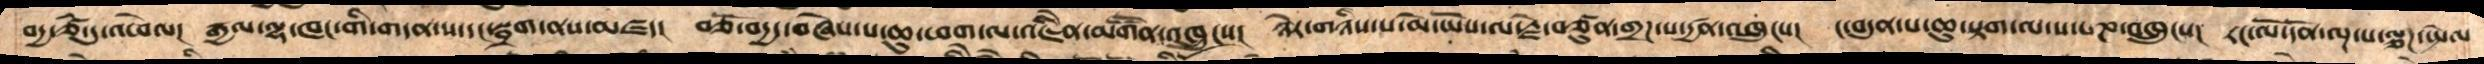བདྱ་ཙཾ་དུ་འཕེལ།  དྱལ་ལྷ་ཁང་གི་གདན་ས་དང་སྦྲག་ནས་མཛད།   བཅོ་བདྱད་བཞེས་པ་ཆུ་ཕག་ལ་འཇིནེ་མགཽན་འཁྲུངས།   ཉེར་གཉིས་པ་མེ་ཡོས་ལ་རྗེ་བཙུན་གྲཌ་པ་དྱཚན་འཁྲུངས།  ང་བདུན་པ་ཆུ་སྟག་ལ་ས་པཎ་འཁྲུངས།  རང་ལོ་དོན་ལྔ་པ་ལྕཌ་སྤེལ་
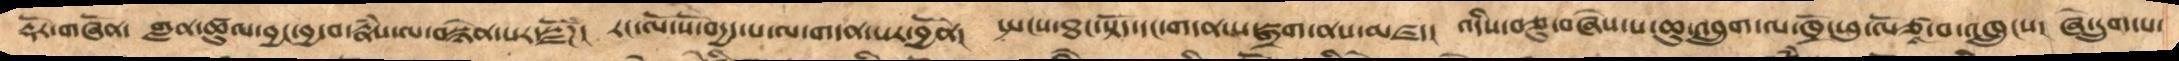རྡོར་གཞོན།   གླན་ཚུལ་བྱང་བྱ་བ་རྣཾས་ལ་བསྙེན་པར་སྫོཌ།  རང་ལོ་སོ་བདྱད་པ་ལ་གདན་སར་བྱོན།  སྤངས་ཐང་སྟོད་དང་གདན་ས་སྒྲག་ནས་མཛད།   འདིས་བཅུ་བཞེས་པ་ཆུ་འབྲུག་ལ་ཁྲོ་ཕུ་ལོ་ཙཱ་བ་འཁྲུངས།  ཞེ་དྲུག་པ
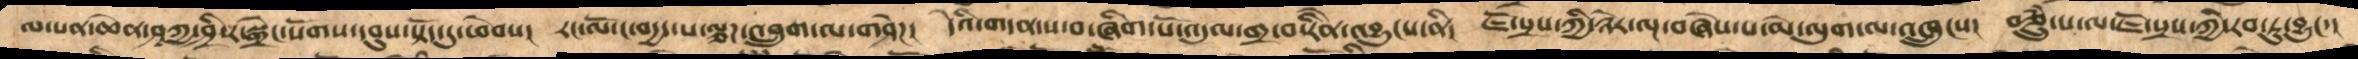ལ་པཎ་ཆེན་ཤཱཀྱ་ཤྲཱི་ར་སྒྲེང་སོགས་དབུས་སྟོད་དུ་ཕེབས།  རང་ལོ་ང་བདྱད་པ་ལྕཌ་འབྲུག་ལ་གཤེཌ།  དེའི་གདན་ས་བ་ཞིག་པོ་འདུལ་གྲ་བ་རིནེ་འབྱུངས་ནི།   ཇོ་སྲས་ཀྱི་ཉེར་ལྔ་བཞེས་པ་མེ་ལུག་ལ་འཁྲུངས།   བཅྲུཾ་པ་ལ་ཇོ་སྲས་ཀྱི་རབ་ཏུ་བྱུང་།
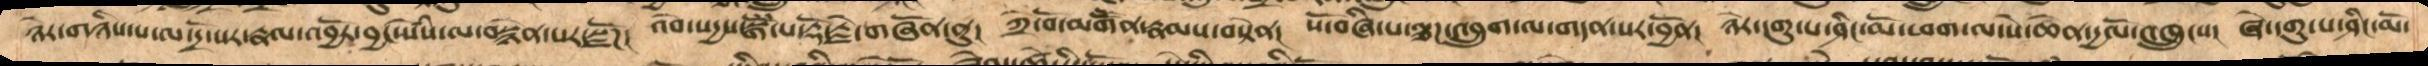ཉེར་གཉིས་པ་ལ་དྲོ་སར་རྣལ་འབྱོར་བྱང་སེསཾ་ལ་བསྙེན་པར་སྫོཌ།   འབེ་སདྱས་སྒོཾ་པ་རྡོ་རྗེ་གཞོན་ནུ།  ཀྲེ་བོ་མགཽན་རྣམས་བསྟེན།  སོ་བཞི་པ་ལྕཌ་འབྲུག་ལ་གདན་སར་བྱོན།  ཉེར་དགུ་པ་ཤིང་མོ་ཕག་ལ་སེ་ཆེན་དྱལོ་འཁྲུངས།  ཞེ་དགུ་པ་ཤིང་མོ་
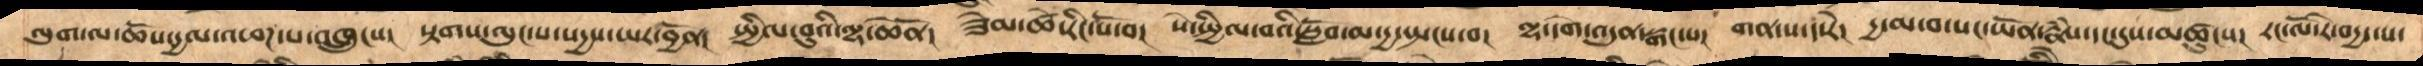ལུག་ལ་ཆོས་དྱལ་འཕཌ་པ་འཁྲུངས།  སྟགས་ལུང་པ་སདྱས་ཡར་བྱོན།   སྤྱིལ་བུའི་ལྷ་ཆེནོ།   ཟེམ་ཚེ་རིང་པོ་བ།  སེ་སྤྱིལ་བའི་སློབ་མ་དྱ་སྤངས་བ།   ལྷ་དགེ་འདུན་སྒང་པ།  གན་ས་ད་རེ།  དྱ་མ་བ་སང་ཡོན་རྣཾས་དང་དུས་མཚུངས།  རང་ལོ་རེ་བདྱད་པ་
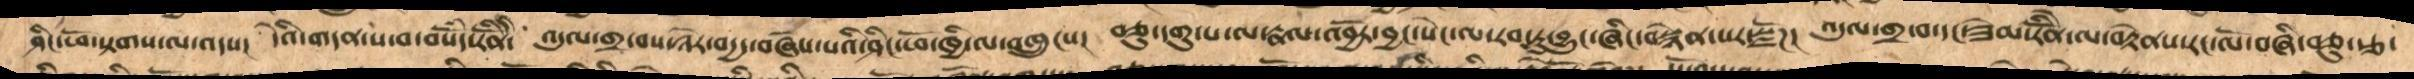ཤིང་ཕོ་སྟགས་ལ་འདས།   དེའི་གདན་ས་བ་བསོདཾ་རིནོ་ི   འདུལ་གྲ་བས་ཉེར་བདྱད་བཞེས་པའི་ཤིང་ཕོ་ཁྱི་ལ་འཁྲུངས།  བཅུ་དགུ་པ་ལ་རྣལ་འབྱོར་བྱང་སེང་ལ་རབ་ཏུ་བྱུང་ཞིང་བསྙེན་པར་སྫོཌ།  འདུལ་གྲ་བ་དང་ཟེམ་རིནོ་ེལ་བརྟེནས་རང་ལོ་བཞི་བཅུ་རྩ་
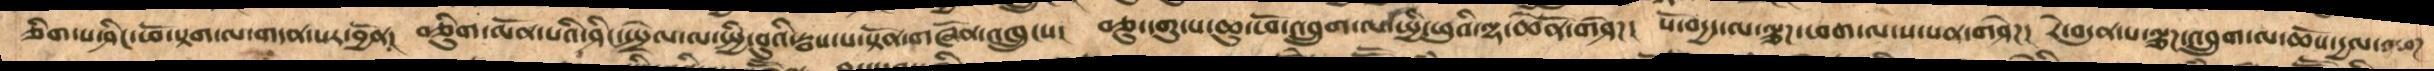ཅིག་པ་ཤིང་ཕོ་སྟག་ལ་གདན་སར་བྱོན།  བཅིུག་མོན་པའི་ཤིང་སྤྲེལ་ལ་སྤྱི་བུའི་སྦས་པ་སྟོན་གཞོན་འཁྲུངས།  བཅུ་དགུ་པ་ཆུ་ཕོ་འབྲུག་ལ་སྤྱིལ་ཕུའི་ལྷ་ཆེནོ་གཤེཌ།  སོ་བདྱད་ལ་ལྕཌ་ཕག་ལ་ས་པན་གཤེཌ།  རེ་བདུན་པ་ལྕཌ་འབྲུག་ལ་ཆོས་དྱལ་འཕཌ་
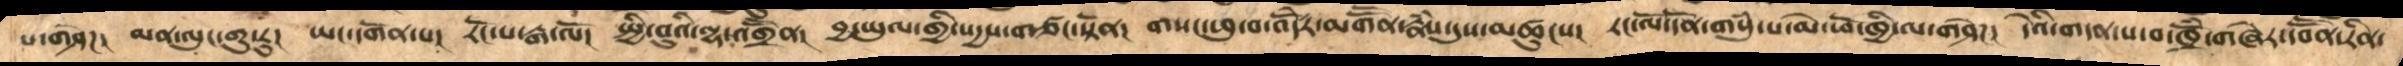པ་གཤེཌ།  མན་ལུང་གུ་རུ།  ཡང་དགོན་པ།  རོང་པ་རྒ་ལོ།  སྤྱི་བུའི་ལྷ་འགྲཽན།  བྱ་ཡུལ་གྱི་སདྱས་གཙང་སྟོན།  གསང་ཕུ་བ་འདོརེ་མགཽན་རྣཾས་དུས་མཚུངས།  རང་ལོ་དོན་གསུཾ་པ་མེ་ཕོ་ཁྱི་ལ་གཤེཌ།  དེའི་གདན་ས་བ་ཁྲོཾ་གཞེར་དབཽན་རིན་
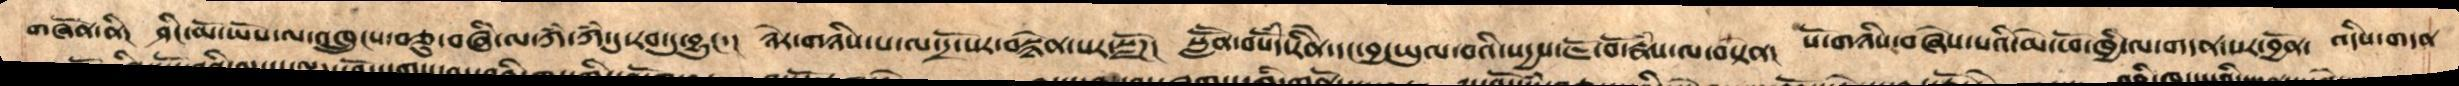གཞོན་ནི།  ཤིང་མོ་ཡོས་ལ་འཁྲུངས་བཅུ་བཞི་ལ་ཀཾ་ཀཾ་དུ་རབ་ཏུ་བྱུང་།   ཉེར་གཉིས་པ་ལ་དྲོ་སར་བསྙེན་པར་སྫོཌ།   སླཽན་བསོདཾ་རིནེ་དང་བྱ་ཡུལ་བའི་སདྱས་ཇོ་བོ་རྣཾས་ལ་བསྟེན།   སོ་གཉིས་བཞེས་པའི་མེ་ཕོ་ཁྱི་ལ་གདན་སར་བྱོན། འདིས་གདན་
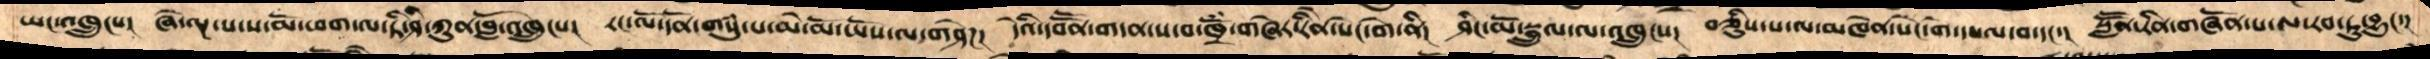ཡང་འཁྲུངས།  ཞེ་ལྔ་པ་ས་མོ་ཕག་ལ་ཏི་ཤི་ཀུན་བློ་འཁྲུངས།  རང་ལོ་དོན་གསུཾ་པ་མེ་མོ་ཡོས་ལ་གཤེཌ།  དེའི་དབཽན་གདན་ས་བ་ཁྲོཾ་གཞེར་རིནེ་སེང་གེ་ནི།   ཤིང་མོ་སྦྲུལ་ལ་འཁྲུངས།  བཅིུས་པ་ལ་མཁེན་སེང་གེ་དཔལ་བ་དང་།   སླཽན་རིནེ་གཞོན་པ་ལ་རབ་ཏུ་བྱུང་།
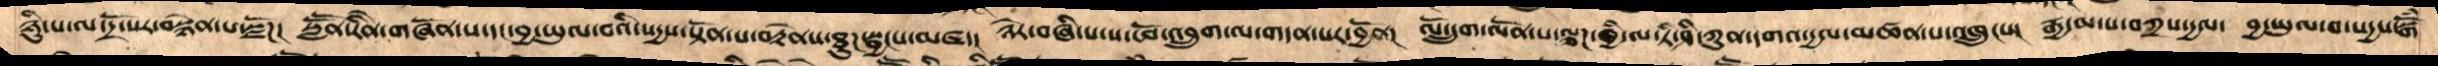ཉིུ་པ་ལ་དྲོ་སར་བསྙེན་པར་སྫོཌ།   སླཽན་རིནེ་གཞོན་པ་དང་བྱ་ཡུལ་བའི་སདྱས་སྟོན་པ་བརྟེནས་ཐུཌ་སྦྱངས་མཛད།  ཉེར་བཞི་པ་ས་ཕོ་འབྲུག་ལ་གདན་སར་བྱོན།   ལོ་དྲུག་ལོན་པ་ལྕཌ་ཁྱི་ལ་ཏི་ཤི་ཀུན་དགའ་རྒྱལ་མཚན་པ་འཁྲུངས།  རྒྱ་མ་པ་བཀྲས་དྱལ།  བྱ་ཡུལ་བ་སདྱས་སྒོཾ
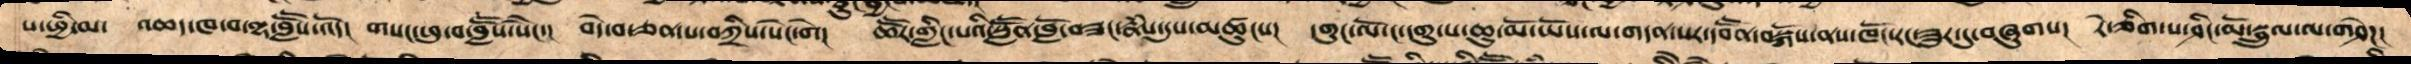པ་ཕྱི་མ།   འཆད་ཁ་བ་ལྷ་བླཽས་འོད།   གསང་ཕུ་བ་བླཽས་སཻང་།   བདེ་བ་ཅན་པ་བཀྲིས་སེང་གེ།   ཆཽར་གླིང་པའི་སླཽན་བློ་བཟང་རྣཾས་དུས་མཚུངས།  དགུང་ལོ་ང་དགུ་པ་ཆུ་མོ་ཡོས་ལ་གདན་སར་དབཽན་བསྐོས་ནས་ཁོང་རང་ཟུར་དུ་བཞུགས།  རེ་ཅིག་པ་ཤིང་མོ་སྦྲུལ་ལ་གཤེཌ་
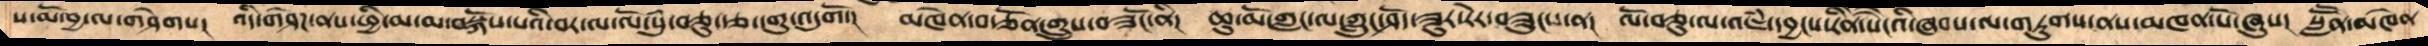ས་མོ་བྱ་ལ་གཤེགས།  འདི་གཤེཌ་ནས་ཕྱི་མ་མ་བསྐོས་པའི་བར་ལ་ལོ་སུཾ་བཅུ་རྩ་དགུ་འདུགོ་།  མཁེན་བརྩོན་གྲུས་བཟངོ་ནི།  ཆུ་མོ་གླང་ལ་ཀླུང་ཤོད་ཟུར་རེར་བཟུངས་ན།  ལོ་བཅུ་ལ་འཇཾ་དབྱངས་རིནེ་སཻངའི་ཞབས་ལ་གཏུགས་ནས་མཁན་པོ་ཞུས།   སླཽན་མཁེན་
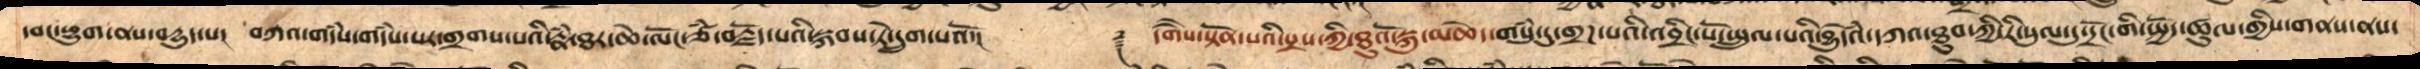དབང་ཕྱུག་ནས་བདྱུད་པ།   བཀའ་གདཾས་གདཾས་པར་གྲགས་པའི་རྣཾ་ཐར་ཆེ་ལོང་ཙཾ་བརྗོད་པའི་སྐབས་ཏེ་དྲུག་པའོ་།     ༈  དགཻས་སྟོན་པའི་སྲས་ཀྱི་ཐུའོ་སྐུ་མཆེད་གསུཾ་དུ་གྲཌ་པའི་འབྲིང་པོ་སྤྲུལ་པའི་བྱུདེའཾ་དཀའ་ཐུབ་ཀྱི་རི་སུལ་དུ་དྲོང་གི་སྤྱོད་ཚུལ་གྱིས་གནས་ནས་
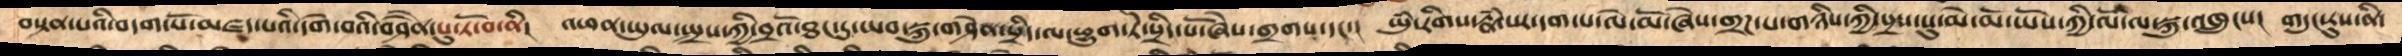བསྟན་པའི་བདག་པོ་མཛད་པའི་དགེ་བའི་བཤཻན་པུ་ཏོ་བ་ནི།   འཕན་ཡུལ་སྤྲས་ཀྱི་བྲའོ་ཐང་དུ་ཡབ་སྐུ་གཤེན་སྲིད་ལ་ཕྱུག་ཏེ་སྲིད་པོ་ཞེས་གྲགས་དང་།   ཡུཾ་རིགས་རྣཾ་པར་དག་པ་ལེ་མོ་ཞེས་གྲཌ་པ་གཉིས་ཀྱི་སྲས་སུ་མེ་མོ་ཡོས་ཀྱི་ལོ་ལ་སྐུ་འཁྲུངས།   གདུང་རུས་ནི་
